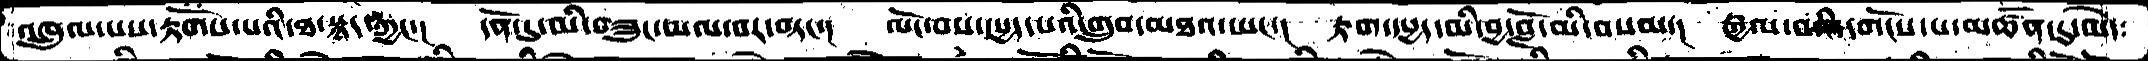འཁྲུལ་པས་རྟོགས་པའི་ཐ་སྙད་ཀྱང་།  དོན་དུ་མི་བཟུང་ཡལ་བར་བཏང་།  ལོང་བས་དཔྱད་པའི་གྲུབ་མཐའ་ཡང་།  རྟག་དཔྱད་མི་བྱ་བློ་མི་བསམ་།  རྒྱལ་བའི་དགོངས་པ་མཚོན་དུ་མེད་
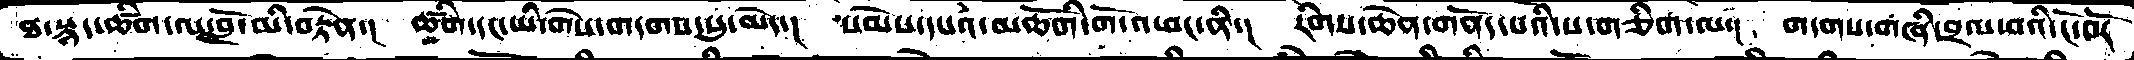ཐ་སྙད་ཚིག་ལ་བློ་མི་བརྟེན་།  ཚིག་དང་ཡི་གེས་གདགས་སུ་མེད་།  སེམས་དཔའ་མཆོགི་གོ་འཕང་ནི་།  རིགས་ཆེན་གནོད་པའི་ས་གཅིག་ལ་།  གདགས་གཞི་བྲལ་བའི་ངོ་བོར
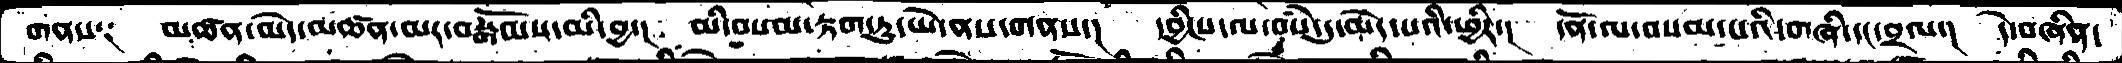གནས༑  མཚན་མེད་མཚན་མར་བསྒོམས་མི་བྱ་།  མི་བསམ་རྟག་ཏུ་ཡེ་ནས་གནས་།  དབྱིངས་ལ་བསཾ་དུ་མེད་པའི་ཕྱིར་།  དོན་ལ་བསམ་པའི་གཞི་དང་བྲལ་།  དེ་བཞིན་
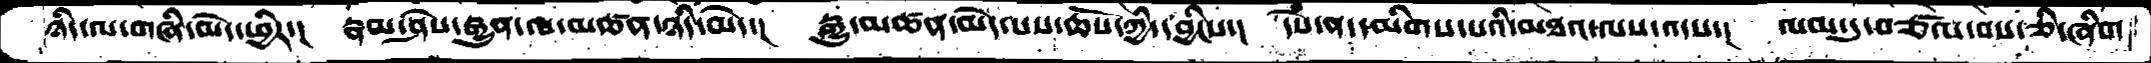ཉིད་ལ་གཞི་མེད་ཕྱིར་།  རྣམ་ཤེས་རྒྱུན་ལ་མཚན་ཉིད་མེད་།  རྒྱུ་མཚན་མེད་པས་ཆོས་ཀྱི་དབྱིངས་།  དཔེ་ན་དམིགས་པའི་མཐའ་ལས་འདས་།  ལམ་དུ་བཙལ་བས་ཅི་ཞིག་
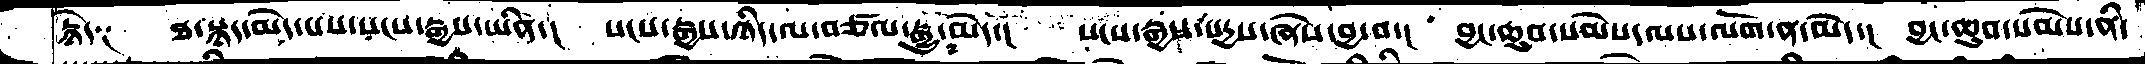རྙེད༑  ཐ་སྙད་མེད་པས་སངས་རྒྱས་ཡིན་།  སངས་རྒྱས་ཉིད་ལ་བཙལ་རྒྱུ་མེད་།  སངས་རྒྱས་སདྱས་ཞེས་བྱ་བ་།  བྱང་ཆུབ་སེམས་ལས་ལོག་ན་མེད་།  བྱང་ཆུབ་སེམས་ནི་
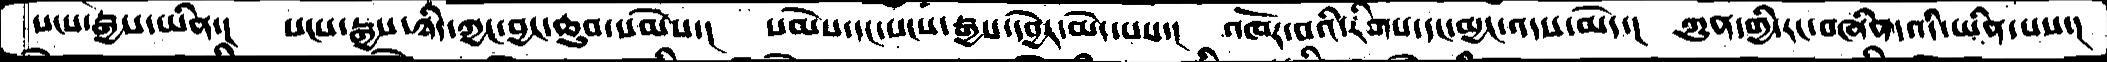སངས་རྒྱས་ཡིན་།  སངས་རྒྱས་ཉིད་ཀྱང་བྱང་ཆུབ་སེམས་།  སེམས་དང་སངས་རྒྱས་དབྱེར་མེད་པས་།  འཁོར་བའི་རིགས་དང་མྱང་འདས་མེད་།  ཀུན་གྱི་རང་བཞིན་འདི་ཡིན་པས་།
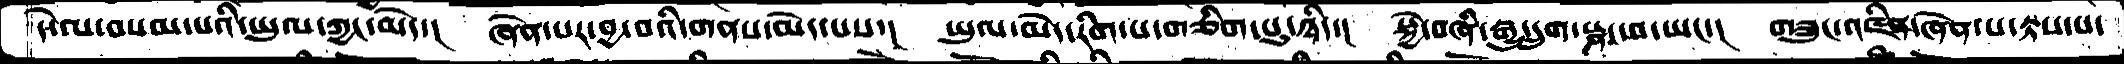དེ་ལ་བསམ་པའི་ཡུལ་ཀྱང་མེད་།  ཞེན་པར་བྱ་བའི་གནས་མེད་པས་།  ཡུལ་མེད་རིག་པ་གཅིག་པུ་ཉིད་།  སྐྱེ་བཞི་རྒྱུ་དྲུག་སྣང་བ་ཡང་།  གཟུང་འཛིན་ཞེན་པ་རྟས་པ་
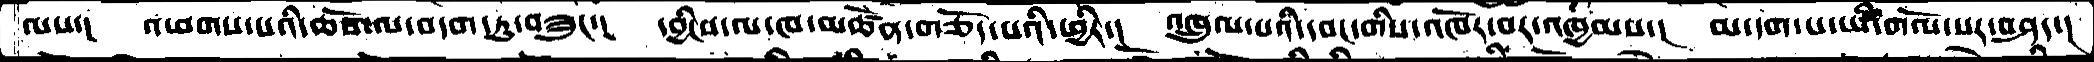ལས་།  འཕགས་པའི་ཆོས་ལ་བདག་ཏུ་བཟུང་།  དབྱིངས་ལ་ཁ་མཚོན་གཅོད་པའི་ཕྱིར་།  འཁྲུལ་པའི་དབང་གིས་འཁོར་བར་འཁྱམས་།  མ་དག་པ་ཡི་གོལ་སར་བཤད་།
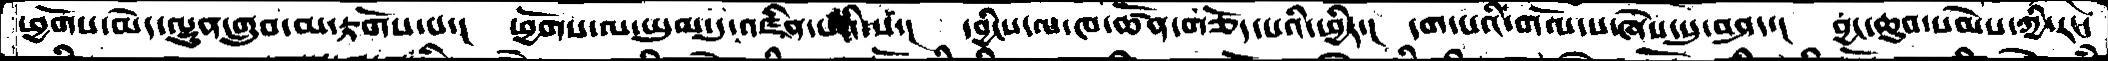ཕྱོགས་མེད་ལྷུན་གྲུབ་མ་རྟོགས་པ་།  ཕྱོགས་ལ་ཡུལ་དུ་འཛིན་པའི་ས་།  དབྱིངས་ལ་ཁ་ཚོན་གཅོད་པའི་ཕྱིར་།  དག་པའི་གོལ་ས་ཞེས་སུ་བཤད་།  བྱང་ཆུབ་སེམས་ཀྱི་རང་
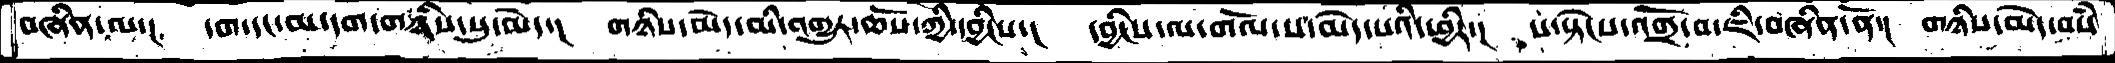བཞིན་ལ་།  དག་དང་མ་དག་གཉིས་སུ་མེད་།  གཉིས་མེད་མི་འགྱུར་ཆོས་ཀྱི་དབྱིངས་།  དབྱིངས་ལ་གོལ་ས་མེད་པའི་ཕྱིར་།  ས་སྟེངས་འགྲོ་བ་ཇི་བཞིན་ནོ་།  གཉིས་མེད་བསཾ་
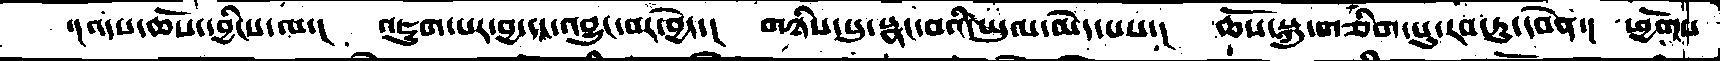་།འདས་ཆོས་དབྱིངས་ལ་།  འཇུག་པར་བྱ་དང་འབྱུང་བར་བྱེད་།  གཉིས་སུ་སྣང་བའི་ཡུལ་མེད་པས་།  ཆོས་སྐུ་གཅིག་པུ་རབ་ཏུ་དབེན་།  ཕྱོགས་
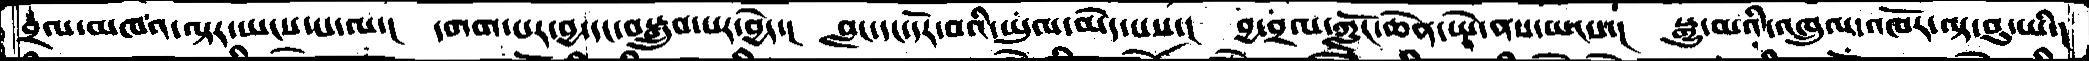བྲལ་མཁའ་ལྟར་ཡངས་པ་ལ་། དགག་པར་བྱ་དང་བསྒྲུབ་པར་བྱེད་། བླང་དང་དོར་བའི་ཡུལ་མདེ་པས་། བྱ་བྲལ་ཀློང་ཆེན་ཡེ་ནས་ཡངས་། སྒྱུ་མའི་འཁྲུལ་འཁོར་ལྟ་བུ་ཡི་།
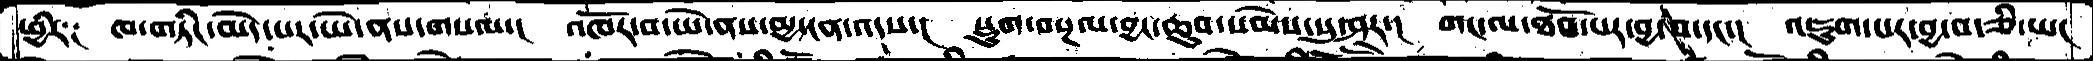ཕྱིར༑  ཁ་གཏིང་མེད་པར་ཡེ་ནས་གསལ་།  འཁོར་བ་ཡེ་ནས་མྱང་ངན་འདས་།  སྡུག་བསྔལ་བྱང་ཆུབ་སེམས་སུ་ཤར་།  གང་ལ་ཐོབ་པར་བྱ་བ་དང་།  འཇུག་པར་བྱ་བ་ཅི་ཡང་
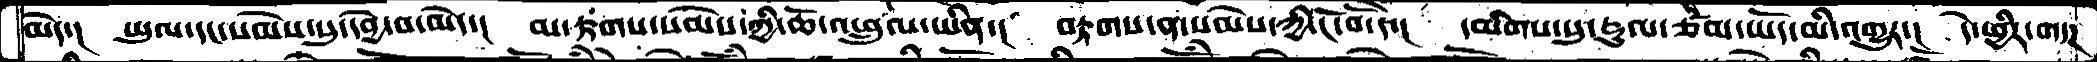མེད་།  ཡུལ་དང་སེམས་སུ་དབྱེ་བ་མེད་།  མ་རྟགས་སེམས་ཀྱི་ཆོ་འཕྲུལ་ཡིན་།  བརྟགས་ན་སེམས་ཀྱི་ངོ་བོ་དེ་།  དམིགས་སུ་རྡུལ་ཙམ་ཡོད་མི་འགྱུར་།  དེ་ཕྱིར་གདཌ
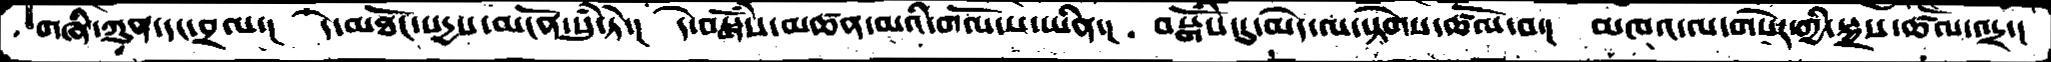གཞི་ཀུན་དང་བྲལ་།  དེ་མཐོང་སདྱས་མངོན་སུཾ་ཏེ་།  དེ་བསྒོཾས་མཚན་མའི་གོལ་ས་ཡིན་།  བསྒོཾས་དུ་མེད་ལ་སྟེགས་ཚོལ་བ་། མཁའ་ལ་གསེར་གྱི་སྐྲས་ཚོལ་འདྲ་།
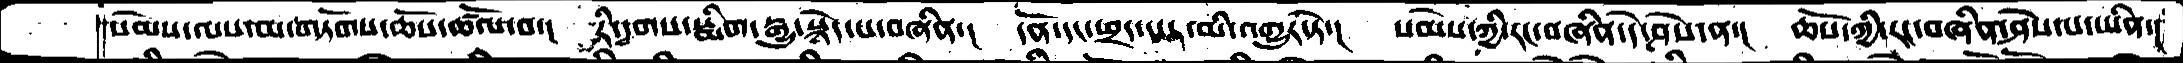སེམས་ལས་མ་གཏོགས་ཆོས་ཚོལ་བ་།  རི་དྭགས་སྨིག་རྒྱུ་རྙེད་པ་བཞིན་།  དོན་དང་ཕྲད་པར་མི་འགྱུར་སྟེ་།  སེམས་ཀྱི་རང་བཞིན་དེ་ཤེས་ན་།  ཆོས་ཀྱི་རང་བཞིན་ཤེས་པ་ཡིན་།
